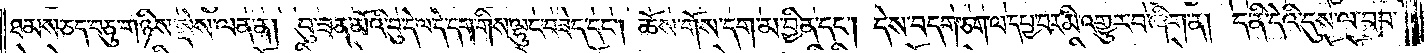ཐམས་ཅད་བཅུ་གཉིས་སྡེས་ལན་ན། བུ་ཟན་མོའི་བུ་དེ་ལ་དེ་དག་གིས་ལྷུང་བཟེད་དང༌། ཆོས་གོས་དག་མ་བྱིན་དང༌། དེས་བདག་ཅག་ལ་དཔྱ་བར་མི་འགྱུར་བ་ཞིག་ན། ད་ནི་དེའི་དུས་ལ་བབ་
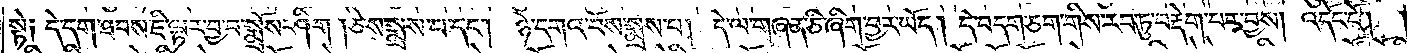སྟེ༑ དེ་དག་ཐབས་ཇི་ལྟར་བྱ་བ་སྨྲོས་ཤིག །ཅེས་སྨྲས་པ་དང༌། ཉེ་དགའ་བོས་སྨྲས་པ། དེ་ལ་གཞན་ཅི་ཞིག་བྱར་ཡོད། དེ་བདག་ཅག་གིས་རབ་ཏུ་བརྡེག་པར་བྱས། འདོང་ངོ༌། །
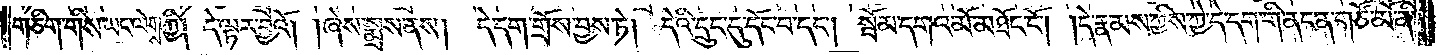གཅིག་གིས་ཡང་ལེགས་ཀྱི། དེ་ལྟར་བྱའོ། །ཞེས་སྨྲས་ནས། དེ་དག་གྲོས་བྱས་ཏེ། དེའི་དྲུང་དུ་དོང་བ་དང༌། སྦོམ་དགའ་མོ་མཐོང་ངོ༌། །དེ་རྣམས་ཀྱིས་ཀྱེ་དེ་དག་གི་ནང་ན་གཙོ་མོ་ནི་
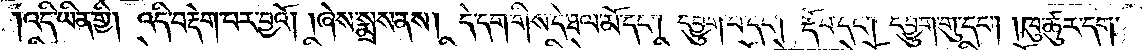འདི་ཡིན་གྱི། འདི་བརྡེག་པར་བྱའོ། །ཞེས་སྨྲས་ནས། དེ་དག་གིས་དེ་ཐལ་མོ་དང༌། དབྱུག་པ་དང༌། རྡོ་བ་དང༌། དབྱུག་གུ་དང༌། ཁུ་ཚུར་དག་
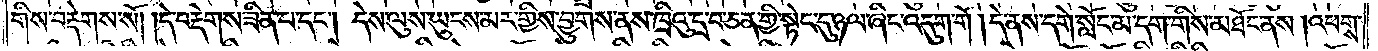གིས་བརྡེགས་སོ། །དེ་བརྡེགས་ཟིན་པ་དང༌། དེས་ལུས་ཡུངས་མར་གྱིས་བྱུགས་ནས་ཁྲིའུ་དྲ་བ་ཅན་གྱི་སྟེང་དུ་ཉལ་ཞིང་འདུག་གོ །དེ་ནས་དགེ་སློང་མ་དག་གིས་མཐོང་ནས། འཕགས་
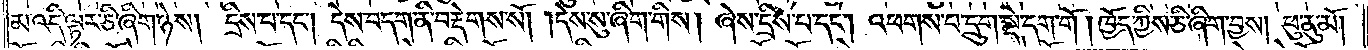མ་འདི་ལྟར་ཅི་ཞིག་ཉེས། དྲིས་པ་དང༌། དེས་བདག་ནི་བརྡེགས་སོ། །དེས་སུ་ཞིག་གིས། ཞེས་དྲིས་པ་དང༌། འཕགས་པ་དྲུག་སྡེ་དག་གོ། ཁྱོད་ཀྱིས་ཅི་ཞིག་བྱས། ཕུ་ནུ་མོ།
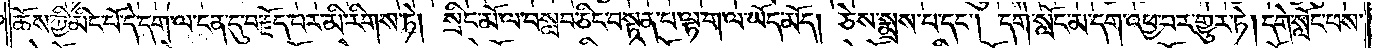ཆོས་ཀྱི་མིང་པོ་དེ་དག་ལ་ངན་དུ་བརྗོད་པར་མི་རིགས་ཏེ། སྲིང་མོ་ལ་བསླབ་ཅིང་བསྟན་པ་ལྟ་ག་ལ་ཡོད་མོད། ཅེས་སྨྲས་པ་དང༌། དགེ་སློང་མ་དག་འཕྱ་བར་གྱུར་ཏེ། དགེ་སློང་ཕས་
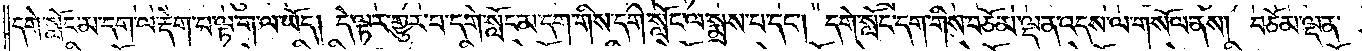དགེ་སློང་མ་དག་ལ་རྡེག་པ་ལྟ་ག་ལ་ཡོད། དེ་ལྟར་གྱུར་པ་དགེ་སློང་མ་དག་གིས་དགེ་སློང་ལ་སྨྲས་པ་དང༌། དགེ་སློང་དག་གིས་བཅོམ་ལྡན་འདས་ལ་གསོལ་ནས། བཅོམ་ལྡན་
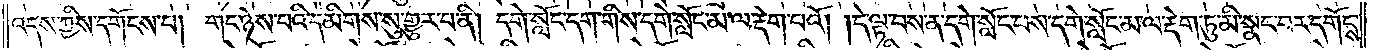འདས་ཀྱིས་དགོངས་པ། གང་ཉེས་པའི་དམིགས་སུ་གྱུར་པ་ནི། དགེ་སློང་དག་གིས་དགེ་སློང་མ་ལ་རྡེག་པའོ། །དེ་ལྟ་བས་ན་དགེ་སློང་ཕས་དགེ་སློང་མ་ལ་རྡེག་ཏུ་མི་སྣང་བར་དགོངས་
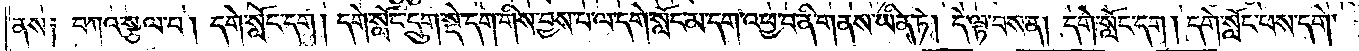ནས༑ བཀའ་སྩལ་པ། དགེ་སློང་དག །དགེ་སློང་དྲུག་སྡེ་དག་གིས་བྱས་པ་ལ་དགེ་སློང་མ་དག་འཕྱ་བ་ནི་གནས་ཡིན་ཏེ། དེ་ལྟ་བས་ན། དགེ་སློང་དག། དགེ་སློང་ཕས་དགེ་
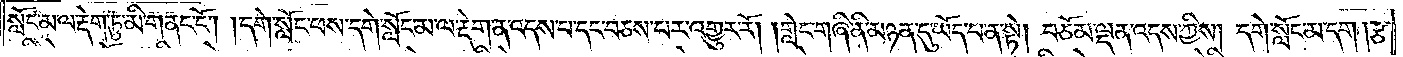སློང་མ་ལ་རྡེག་ཏུ་མི་གནང་ངོ༌། །དགེ་སློང་ཕས་དགེ་སློང་མ་ལ་རྡེག་ན་འདས་པ་དང་བཅས་པར་འགྱུར་རོ། །གླེང་གཞི་ནི་མཉན་དུ་ཡོད་པ་ན་སྟེ། བཅོམ་ལྡན་འདས་ཀྱིས། དགེ་སློང་མ་དག །རྩ་
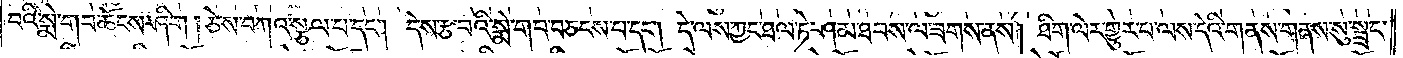བའི་སྨེ་གབ་ཆོངས་ཤིག །ཅེས་བཀའ་སྩལ་པ་དང༌། དེས་རྩ་བའི་སྨེ་གབ་བཅངས་པ་དང༌། དེ་ལས་ཀྱང་ཐལ་ཏེ་ཤམ་ཐབས་ལ་ཟགས་ནས། ཐིག་ལེར་གྱུར་པ་ལས་དེའི་གནས་གནས་སུ་སྦྲང་
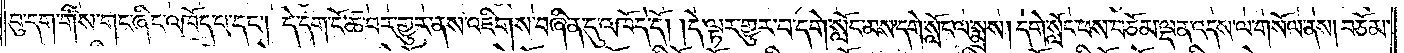བུ་དག་གིས་གང་ཞིང་འཁོད་པ་དང༌། དེ་དག་ངོ་ཚ་བར་གྱུར་ནས་འཇིགས་བཞིན་དུ་འཁོད་དོ། །དེ་ལྟར་གྱུར་པ་དགེ་སློང་མས་དགེ་སློང་ལ་སྨྲས། དགེ་སློང་ཕས་བཅོམ་ལྡན་འདས་ལ་གསོལ་ནས། བཅོམ་
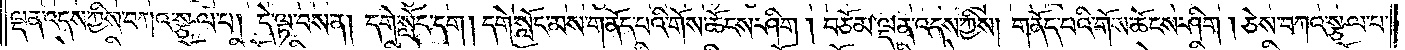ལྡན་འདས་ཀྱིས་བཀའ་སྩལ་པ། དེ་ལྟ་བས་ན། དགེ་སློང་དག །དགེ་སློང་མས་གནོད་པའི་གོས་ཆོངས་ཤིག །བཅོམ་ལྡན་འདས་ཀྱིས། གནོད་པའི་གོས་ཆོངས་ཤིག །ཅེས་བཀའ་སྩལ་པ་
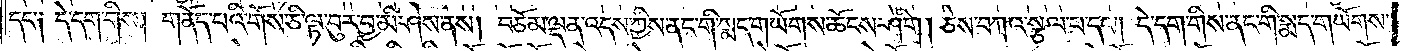དང༌༑ དེ་དག་གིས། གནོད་པའི་གོས་ཅི་ལྟ་བུར་བྱ་མི་ཤེས་ནས། བཅོམ་ལྡན་འདས་ཀྱིས་ནང་གི་སྨད་གཡོགས་ཆོངས་ཤིག །ཅེས་བཀའ་སྩལ་བ་དང༌། དེ་དག་གིས་ནང་གི་སྨད་གཡོགས་
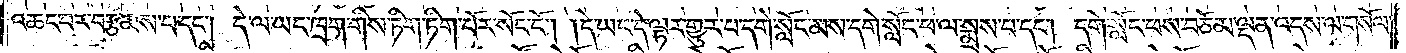འཆང་བར་བརྩམས་པ་དང༌། དེ་ལ་ཡང་ཁྲག་གིས་ཏིག་ཏིག་པོར་སོང་ངོ༌། །དེ་ཡང་དེ་ལྟར་གྱུར་པ་དགེ་སློང་མས་དགེ་སློང་ཕ་ལ་སྨྲས་པ་དང༌། དགེ་སློང་ཕས་བཅོམ་ལྡན་འདས་ལ་གསོལ་
